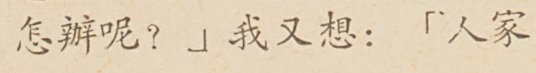怎辦呢？」我又想：「人家
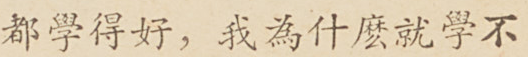都學得好，我為什麼就學不
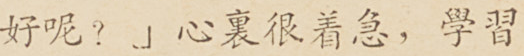好呢？」心裏很着急，學習
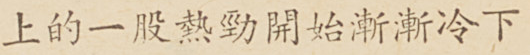上的一股熱勁開始漸漸冷下
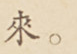來。
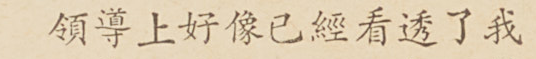領導上好像已經看透了我
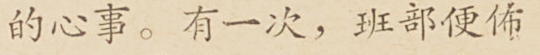的心事。有一次，班部便佈
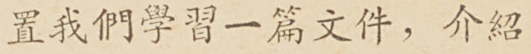置我們學習一篇文件，介紹
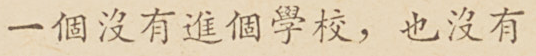一個沒有進個學校，也沒有
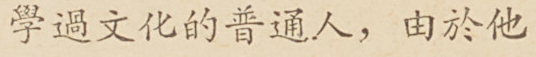學過文化的普通人，由於他
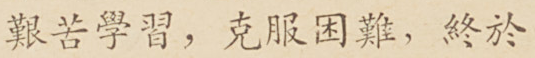艱苦學習，克服困難，終於
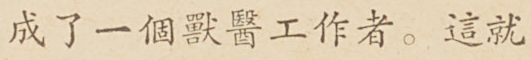成了一個獸醫工作者。這就
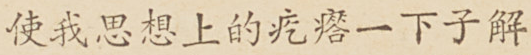使我思想上的疙瘩一下子解
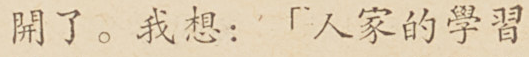開了。我想：「人家的學習
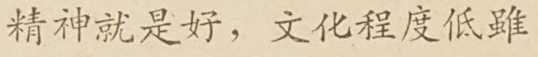精神就是好，文化程度低雖
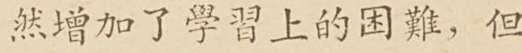然增加了學習上的困難，但
